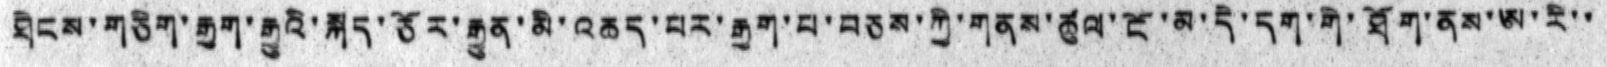ཐེངས་གཅིག་རྒྱག་རྒྱུའི་སྐད་ཅོར་རྒྱུན་མི་འཆད་པར་རྒྱག་པ་བཅས་ཀྱི་གནས་ཚུལ་ངོ་མ་དེ་དག་གི་ཐོག་ནས་ཨ་རི་་
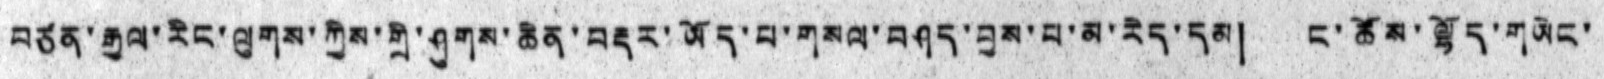བཙན་རྒྱལ་རིང་ལུགས་ཀྱིས་གྲི་ཤུགས་ཆེན་བརྡར་ཡོད་པ་གསལ་བཤད་བྱས་པ་མ་རེད་དམ། ང་ཚོས་ལྷོད་གཡེང་
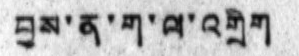བྱས་ན་ག་ལ་འགྲིག
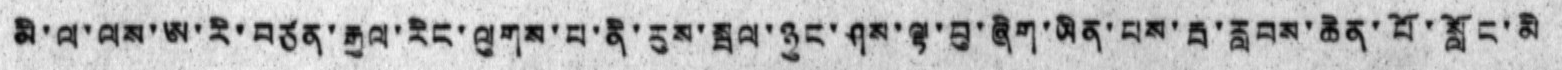མི་ལ་ལས་ཨ་རི་བཙན་རྒྱལ་རིང་ལུགས་པ་ནི་རུས་སྦལ་ཉུང་ཤས་ལྟ་བུ་ཞིག་ཡིན་པས་རྦ་རླབས་ཆེན་པོ་སློང་མི
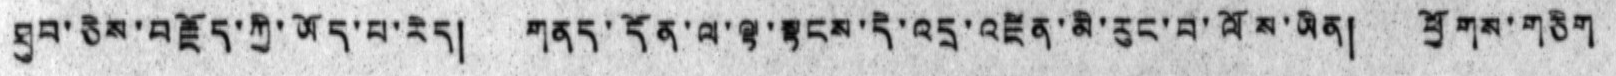ཐུབ་ཅེས་བརྗོད་ཀྱི་ཡོད་པ་རེད། གནད་དོན་ལ་ལྟ་སྟངས་དེ་འདྲ་འཛིན་མི་རུང་བ་ལོས་ཡིན། ཕྱོགས་གཅིག
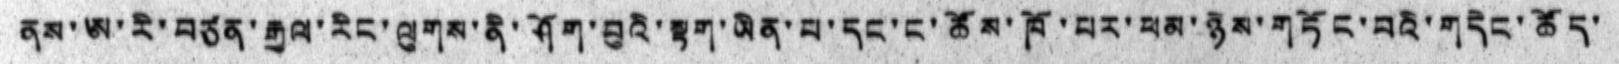ནས་ཨ་རི་བཙན་རྒྱལ་རིང་ལུགས་ནི་ཤོག་བུའི་སྟག་ཡིན་པ་དང་ང་ཆོས་ཁོ་པར་ཕམ་ཉེས་གཏོང་བའི་གདེང་ཚོད་
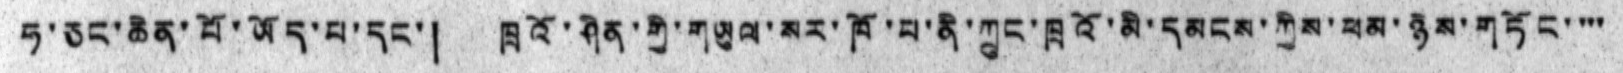ཧ་ཅང་ཆེན་པོ་ཡོད་པ་དང་། ཁྲའོ་ཤིན་གྱི་གཡུལ་སར་ཁོ་པ་ནི་ཀྲུང་ཁྲའོ་མི་དམངས་ཀྱིས་ཕམ་ཉེས་གཏོང་ ་་་
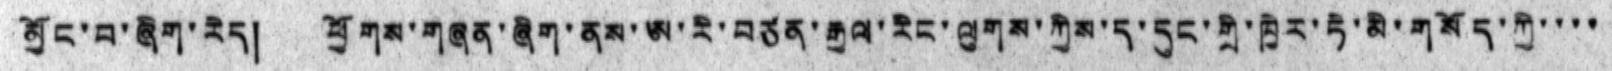མྱོང་བ་ཞིག་རེད། ཕྱོགས་གཞན་ཞིག་ནས་ཨ་རི་བཙན་རྒྱལ་རིང་ལུགས་ཀྱིས་ད་དུང་གྲི་ཁྱེར་ཏེ་མི་གསོད་ཀྱི་་་་
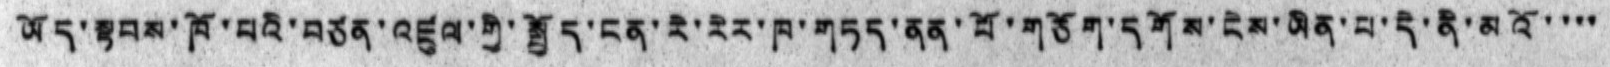ཡོད་སྟབས་ཁོ་པའི་བཙན་འཛུལ་གྱི་སྤྱོད་ངན་རེ་རེར་ཁ་གཏད་ནན་པོ་གཅོག་དགོས་ངེས་ཡིན་པ་དེ་ནི་མའོ་་་་
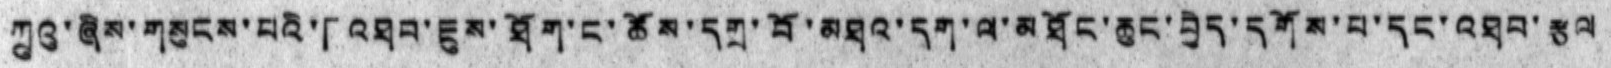ཀྲུའུ་ཞིས་གཟུངས་པའི་「འཐབ་ཇུས་ཐོག་ང་ཚོས་དགྲ་བོ་མཐའ་དག་ལ་མཐོང་ཆུང་བྱེད་དགོས་བ་དང་འཐབ་རྩལ
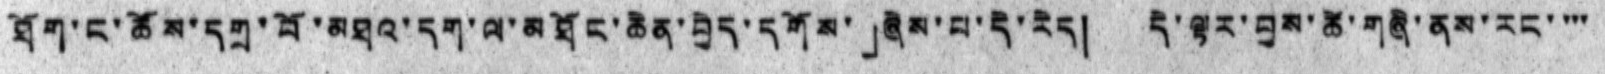ཐོག་ང་ཚོས་དགྲ་བོ་མཐའ་དག་ལ་མཐོང་ཆེན་བྱེད་དགོས་」ཞེས་པ་དེ་རེད། དེ་ལྟར་བྱས་ཆེ་གཞི་ནས་རང་ ་་་
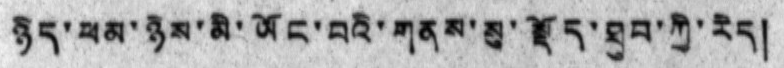ཉིད་ཕམ་ཉེས་མི་ཡོང་བའི་གནས་སུ་སྡོད་ཐུབ་ཀྱི་རེད།
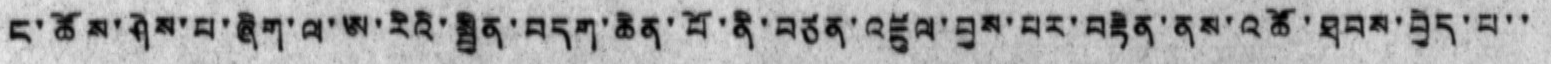ང་ཚོས་ཤིས་པ་ཞིག་ལ་ཨ་རིའི་སྦྱིན་བདག་ཆེན་པོ་ནི་བཙན་འཛུལ་བྱས་པར་བརྟེན་ནས་འཚོ་ཐབས་བྱེད་པ་་
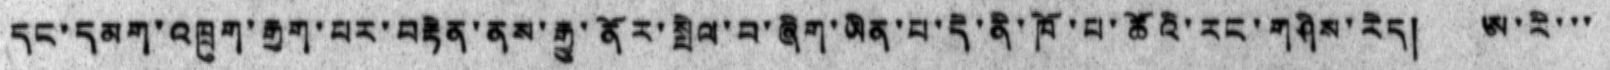དང་དམག་འཁྲུག་རྒྱག་པར་བརྟེན་ནས་རྒྱུ་ནོར་སྤེལ་བ་ཞིག་ཡིན་པ་དེ་ནི་ཁོ་པ་ཚོའི་རང་གཤིས་རེད། ཨ་རི་་་
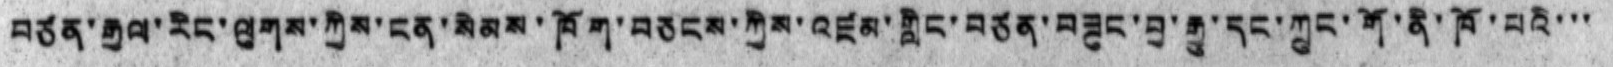བཙན་རྒྱལ་རིང་ལྕགས་ཀྱིས་ངན་སེམས་ཁོག་བཅངས་ཀྱིས་འཛམ་གླིང་བཙན་བཟུང་བྱ་རྒྱུ་དང་ཀྲུང་གོ་ནི་ཁོ་པའི་་་
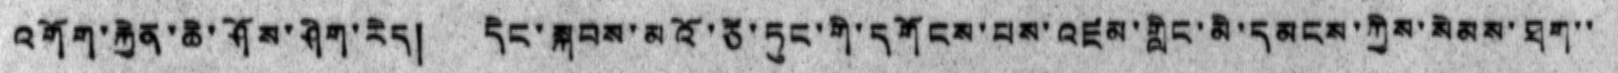འགོག་རྐྱེན་ཆེ་ཤོམ་ཤིག་རེད། དེང་སྐབས་མའོ་ཙེ་ཏུང་གི་དགོངས་པས་འཛམ་གླིང་མི་དམངས་ཀྱིས་སེམས་ཐག་་
